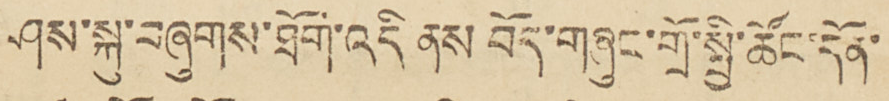ཤས་སྐུ་བཞུགས་ཐོག་འདི ནས་བོད་གཞུང་གྲོ་སྤྱི་ཚོང་དོན་
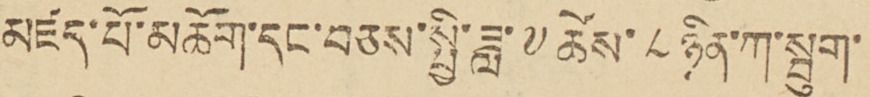མཛད་པོ་མཆོག་དང་བཅས་སྤྱི་ཟླ་༧ཚེས ༨ ཉིན་ཀ་སྦུག་
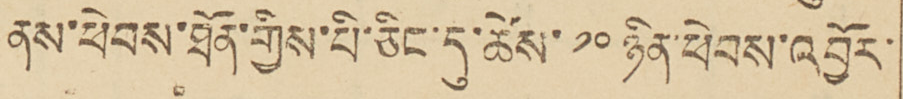ནས་ཕེབས་ཐོན་གྱིས་པི་ཅིང་དུ་ཚེས་ ༡༠ ཉིན་ཕེབས་འབྱོར་
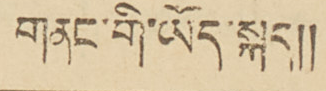གནང་གི་ཡོད་སྐད།།
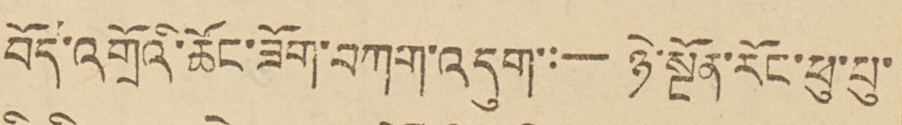བོད་འགྲོའི་ཚོང་ཟོག་བཀག་འདུག་:— ཉེ་སྔོན་རོང་ཕུ་པུ་
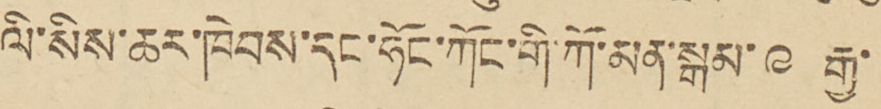ལི་སིས་ཆར་ཁེབས་དང་ཧོར་ཀོང་གི་ཀོ་མན་སྒམ་༩ རྒྱ་
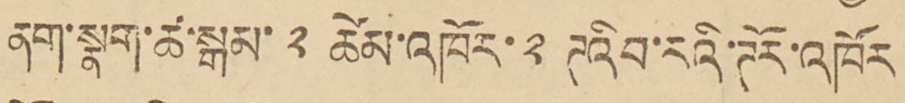ནག་སྣག་ཚ་སྒམ་ ༢ ཚེམ་འཁོར་ ༢ ཊའིབ་རའི་ཊོར་འཁོར
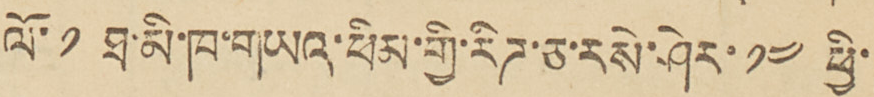ལོ་ ༡ ཐ་མི་ཁ་གཡའ་ཕིམ་གྱི་རིཌ་ཅ་རསེ་ཤེར་༡༤ ཕྱི་
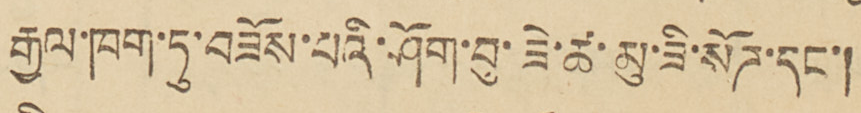རྒྱལ་ཁག་ཏུ་བཟོས་པའི་ཤོག་བུ་ཟེ་ཚ་མུ་ཟི་སོཌ་དང་།
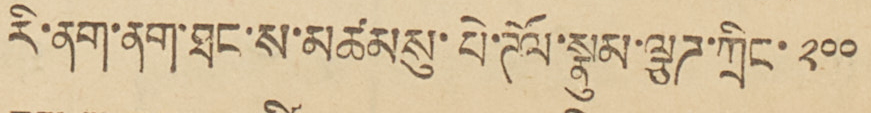རི་ནག་ནག་ཐང་ས་མཚམསུ་པེ་ཊོལ་སྣུམ་ལྕཌ་ཀྲིང་ ༢༠༠
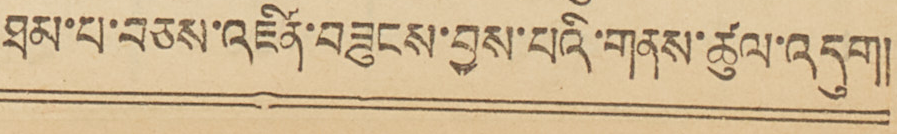ཐམ་པ་བཅས་འཛིན་བཟུངས་བྱས་པའི་གནས་ཚུལ་འདུག།།
